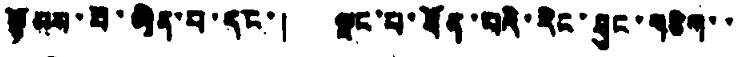སྙོམས་པོ་ཡིན་པ་དང་། ལྗང་པ་ཐོན་པའི་རིང་ཐུང་གཅིག་་
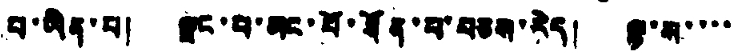པ་ཡིན་པ། ལྗང་པ་མང་པོ་ཐོན་པ་བཅས་རེད། ལྟ་ས་་་་
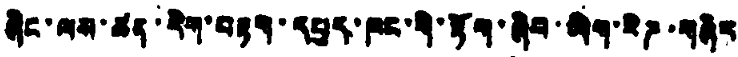ཞིང་ལས་ཚན་རིག་བརྟག་དཔྱད་ཁང་གི་རྟོག་ཞིབ་ཡིག་རིཌ་བཞིར
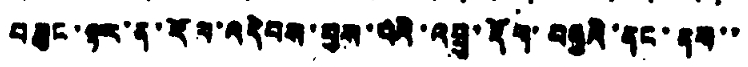བཟུང་ལྟར་ན་རོལ་འདེབས་བྱས་པའི་འབྲུ་རྡོག་བརྒྱའི་ནང་ནས་་
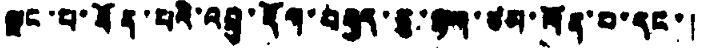ལྗང་པ་ཐོན་པའི་འབྲུ་རྡོག་བརྒྱད་ཅུ་ལྷག་ཙམ་ལོན་པ་དང་།
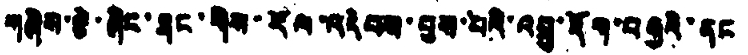གཞིས་རྩེ་ཞིང་ཐང་གིས་རོལ་འདེབས་བྱས་པའི་འབྲུ་རྡོག་བརྒྱའི་ནང
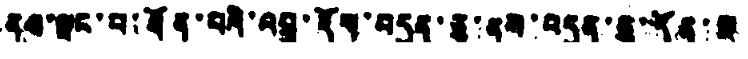ནས་ལྗང་པ་ཐོན་པའི་འབྲུ་རྡོག་བདུན་ཅུ་ནས་བདུན་ཅུ་དོན་སྔ
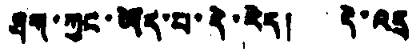ཐག་ཀྱང་ཡོད་པ་དེ་རེད། དེ་འདྲ
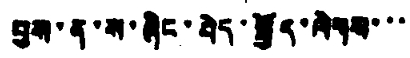བྱས་ན་ས་ཞིང་བེད་སྤྱོད་ལེགས་་་
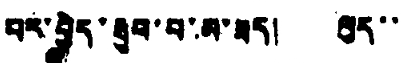པར་བྱེད་ཐུབ་པ་མ་ཟད། ལུད་་
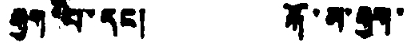རྒྱག་པ་དང། རྐོ་མ་རྒྱག་
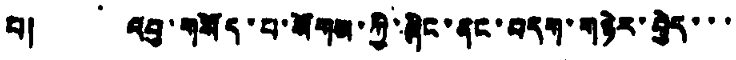པ། འབུ་གསོད་པ་སོགས་ཀྱི་ཞིང་ནང་བདག་གཉེར་བྱེད་་་
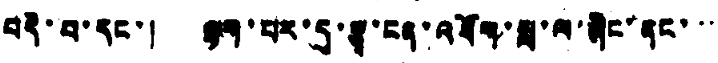བདེ་བ་དང་། ལྷག་པར་དུ་རྩྭ་ངན་འཐོག་སླ་ལ་ཞིང་ནང་་་་
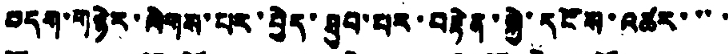བདག་གཉེར་ལེགས་པར་བྱེད་ཐུབ་པར་བརྟེན་སྐྱེ་དངོས་འཚར་་་་
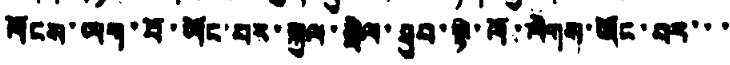ལོངས་ཡག་པོ་ཡོང་བར་སྐྱལ་སྤེལ་ཐུབ་སྟེ་ལོ་ལེགས་ཡོང་བར་་་
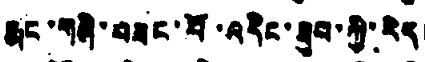རྨང་གཞི་བཟང་པོ་འདིང་ཐུབ་ཀྱི་རེད།
